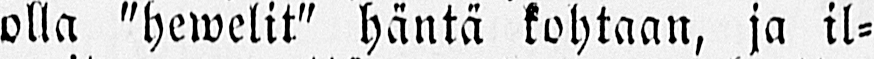olla "hewelit" häntä kohtaan, ja il-
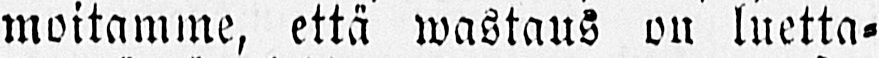moitamme, että wastaus on luotta-
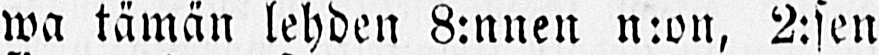ma tämän lehden 8:nnen n:on, 2:sen
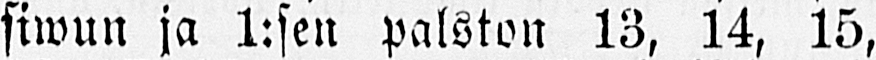siwun ja 1:sen palston 13, 14, 15,
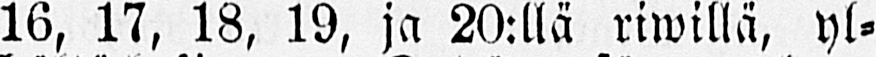16, 17, 18, 19, ja 20:llä riwillä, yl-
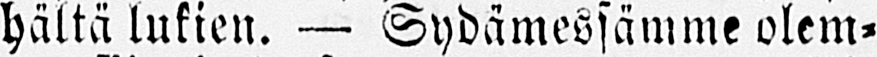hältä lukien. — Sydämessämme olem-
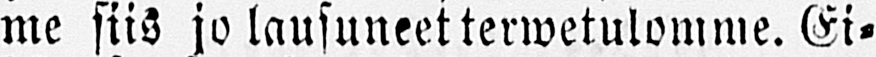me siis jo lausuneet terwetulomme. Ei-
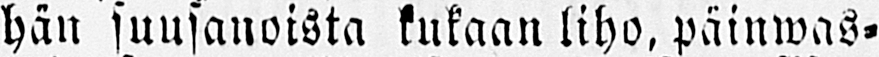hän suusanoista kukaan liho, päinwas-
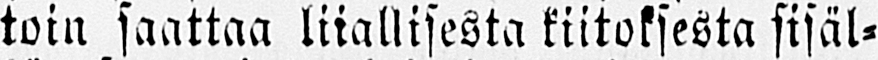toin saattaa liiallisesta kiitoksesta sisäl-
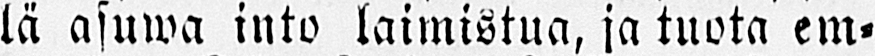lä asuwa into laimistua, ja tuota em-
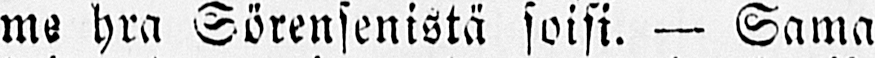me hra Sörensenistä soisi. — Sama
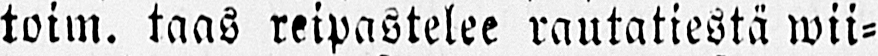toim. taas reipastelee rautatiestä wii-
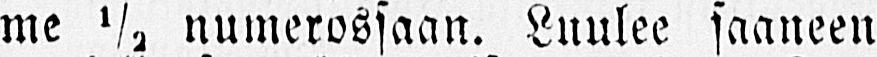me ½, numerossaan. Luulee saaneen
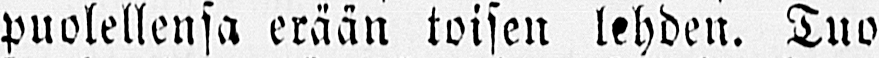puolellensa erään toisen lehden. Tuo
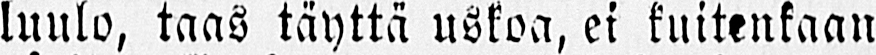luulo, taas täyttä uskoa, ei kuitenkaan
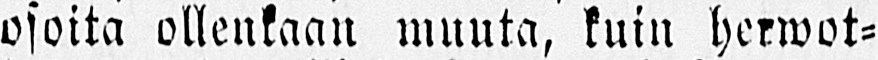osoita ollenkaan muuta, kuin herwot-
